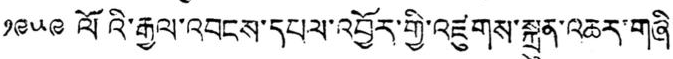༡༩༥༩ ལོའི་རྒྱལ་འབངས་དཔལ་འབྱོར་གྱི་འཛུགས་སྐྲུན་འཆར་གཞི་
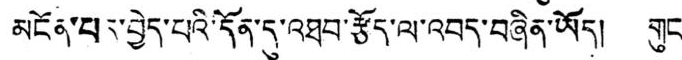མངོན་པར་བྱེད་པའི་དོན་དུ་འཐབ་རྩོད་ལ་འབད་བཞིན་ཡོད། གུང་
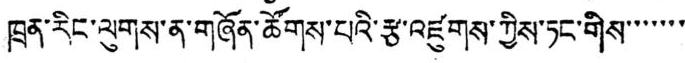ཁྲན་རིང་ལུགས་ན་གཞོན་ཚོགས་པའི་རྩ་འཛུགས་ཀྱིས་ཏང་གིས་་་་་་་
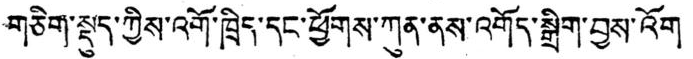གཅིག་སྡུད་ཀྱིས་འགོ་ཁྲིད་དང་ཕྱོགས་ཀུན་ནས་འགོད་སྒྲིག་བྱས་འགོ
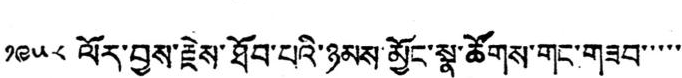༡༩༥༨ ལོར་བྱས་རྗེས་ཐོབ་པའི་ཉམས་མྱོང་སྣ་ཚོགས་གང་གཟབ་་་་་
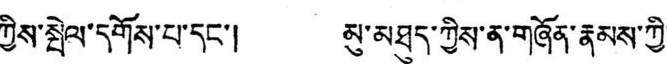ཀྱིས་སྤེལ་དགོས་པ་དང་། མུ་མཐུད་ཀྱིས་ན་གཞོན་རྣམས་ཀྱི་
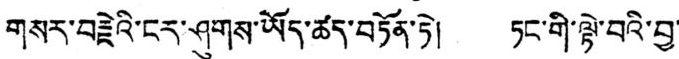གསར་བརྗེའི་ངར་ཤུགས་ཡོད་ཚད་བཏོན་ཏེ། ཏང་གི་ལྟེ་བའི་བྱ་
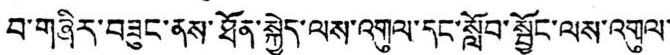བ་གཞིར་བཟུང་ནས་ཐོན་སྐྱེད་ལས་འགུལ་དང་སློབ་སྦྱོང་ལས་འགུལ་་
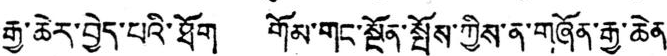རྒྱ་ཆེར་བྱེད་པའི་ཐོག གོམ་གང་སྔོན་སྤོས་ཀྱིས་ན་གཞོན་རྒྱ་ཆེན་
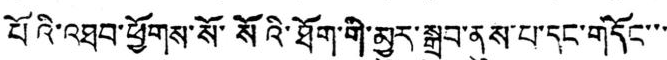པོའི་འཐབ་ཕྱོགས་སོ་སོའི་ཐོག་གི་མྱུར་སྒྲུབ་ནུས་པ་དང་གདོང་་་་
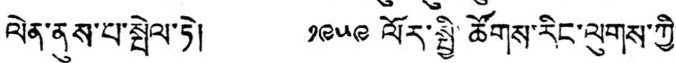ལེན་ནུས་པ་སྤེལ་ཏེ། ༡༩༥༩ ལོར་སྤྱི་ཚོགས་རིང་ལུགས་ཀྱི་
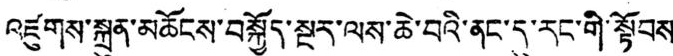འཛུགས་སྐྲུན་མཆོངས་བསྐྱོད་སྔར་ལས་ཆེ་བའི་ནང་དུ་རང་གི་སྟོབས་
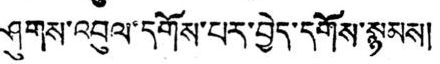ཤུགས་འབུལ་དགོས་པར་བྱེད་དགོས་སྙམས།
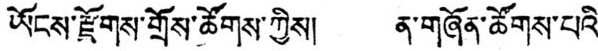ཡོངས་རྫོགས་གྲོས་ཚོགས་ཀྱིས། ན་གཞོན་ཚོགས་པའི་
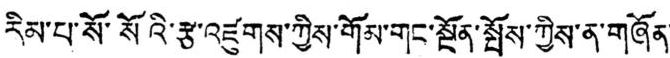རིམ་པ་སོ་སོའི་རྩ་འཛུགས་ཀྱིས་གོམ་གང་སྔོན་སྤོས་ཀྱིས་ན་གཞོན་་
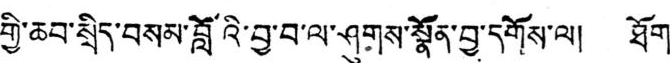གྱི་ཆབ་སྲིད་བསམ་བློའི་བྱ་བ་ལ་ཤུགས་སྣོན་བྱ་དགོས་ལ། ཐོག་
